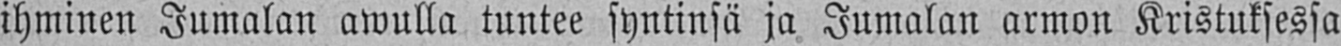ihminen Jumalan awulla tuntee syntinsä ja Jumalan armon Kristuksessa
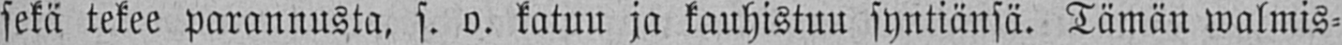sekä tekee parannusta, s. o. katuu ja kauhistuu syntiänsä. Tämän walmis-
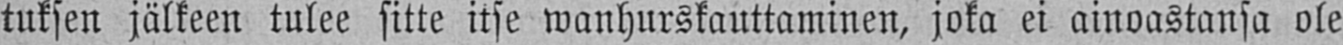tuksen jälkeen tulee sitte itse wanhurskauttaminen, joka ei ainoastansa ole
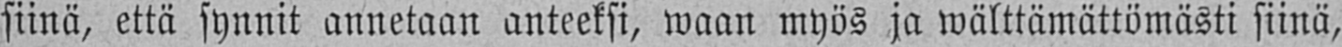siinä, että synnit annetaan anteeksi, waan myös ja wälttämättömästi siinä,
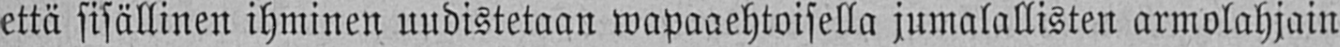että sisällinen ihminen uudistetaan wapaaehtoisella jumalallisten armolahjain
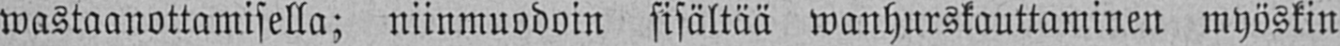wastaanottamisella; niinmuodoin sisältää wanhurskauttaminen myöskin
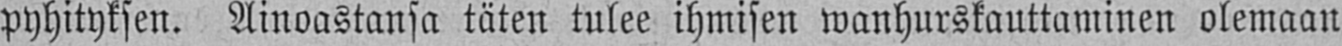pyhityksen. Ainoastansa täten tulee ihmisen wanhurskauttaminen olemaan
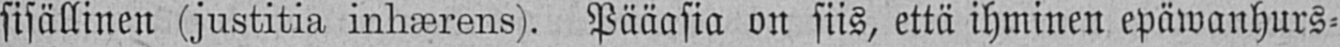sisällinen (justitia inhærens). Pääasia on siis, että ihminen epäwanhurs-
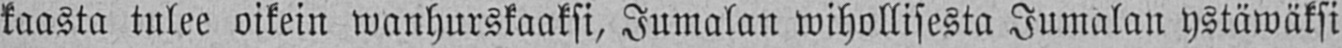kaasta tulee oikein wanhurskaaksi, Jumalan wihollisesta Jumalan ystäwäksi
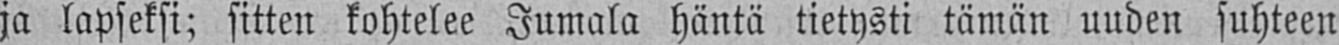ja lapseksi; sitten kohtelee Jumala häntä tietysti tämän uuden suhteen
